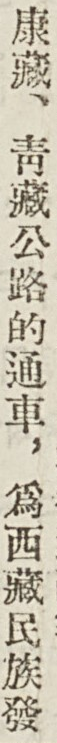康藏、靑藏公路的通車，爲西藏民族發
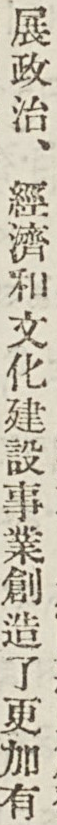展政治、經濟和文化建設事業創造了更加有
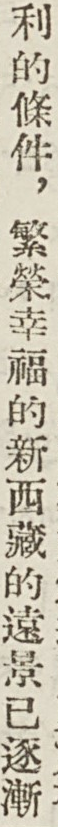利的條件，繁榮幸福的新西藏的遠景已逐漸
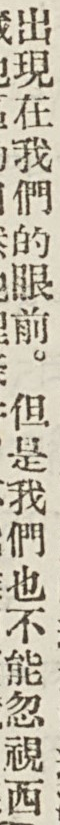出現在我們的眼前。但是我們也不能忽視西
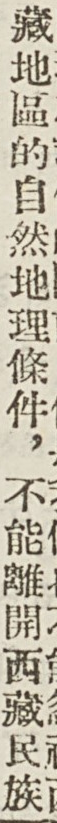藏地區的自然地理條件，不能離開西藏民族
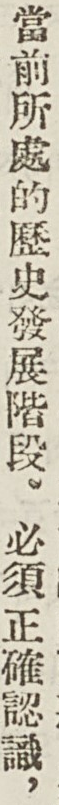當前所處的歷史發展階段。必須正確認識，
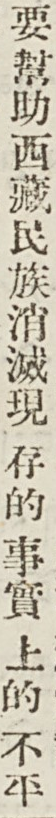要幫助西藏民族消滅現存的事實上的不平
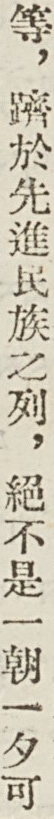等，躋於先進民族之列，絕不是一朝一夕可
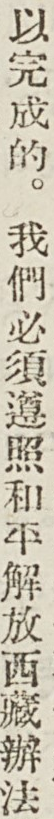以完成的。我們必須遵照和平解放西藏辦法
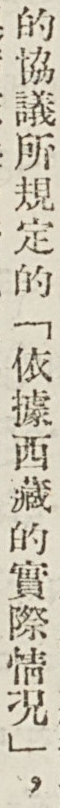的協議所規定的「依據西藏的實際情況」，
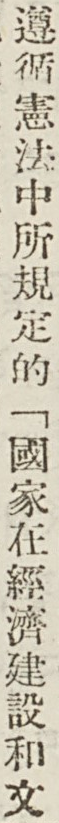遵循憲法中所規定的「國家在經濟建設和文
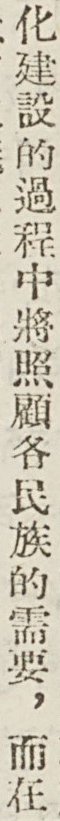化建設的過程中將照顧各民族的需要，而在
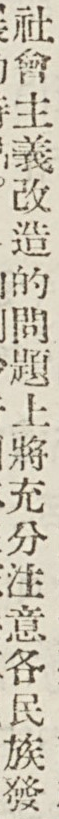社會主義改造的問題上將充分注意各民族發
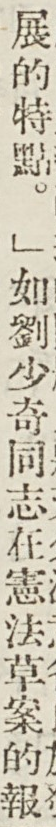展的特點。」如劉少奇同志在憲法草案的報
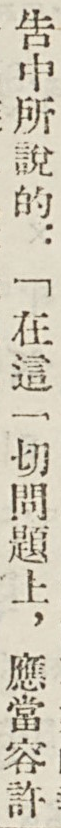告中所說的：「在這一切問題上，應當容許
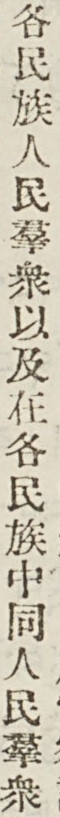各民族人民羣衆以及在各民族中同人民羣衆
